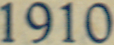1910
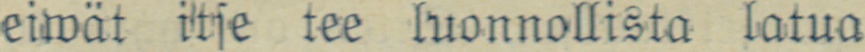eiwät itse tee luonnollista latua
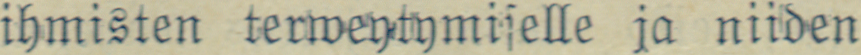ihmisten terweytymiselle ja niiden
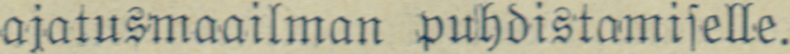ajatusmaailman puhdistamiselle.
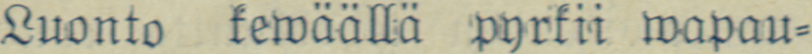Luonto kewäällä pyrkii wapau-
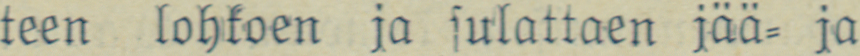teen lohkoen ja sulattaen jää- ja
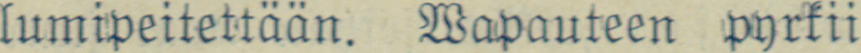lumipeitettään. Wapauteen pyrkii
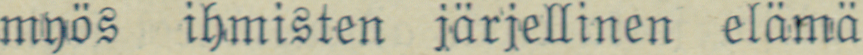myös ihmisten järjellinen elämä
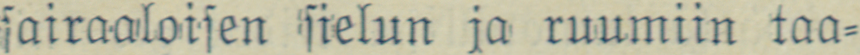sairaalloisen sielun ja ruumiin taa-
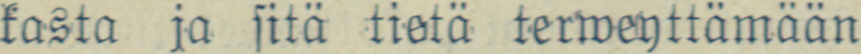kasta ja sitä tietä terweyttämään
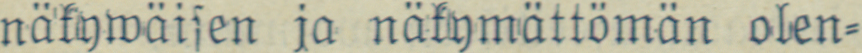näkywäisen ja näkymättömän olen-
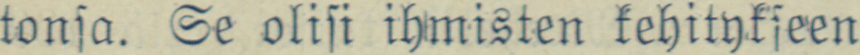tonsa. Se olisi ihmisten kehitykseen
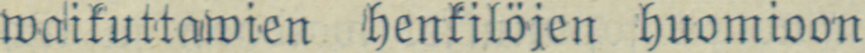waikuttawien henkilöjen huomioon
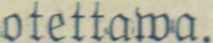olettawa.
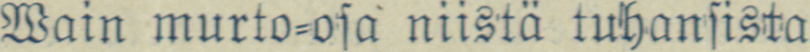Wain murto-osa niistä tuhansista
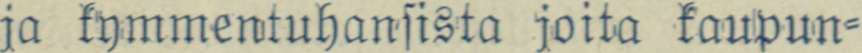ja kymmentuhansista joita kaupun-
